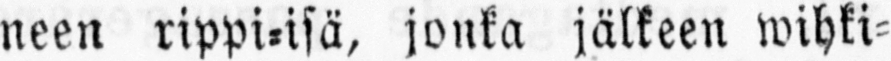neen rippi-isä, jonka jälkeen wihki-
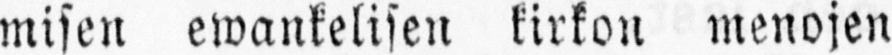misen ewankelisen kirkon menojen
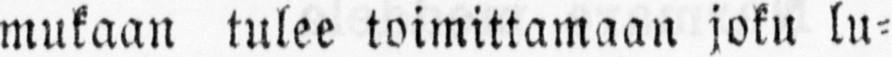mukaan tulee toimittamaan joku lu-
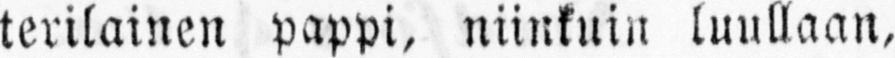terilainen pappi, niinkuin luullaan,
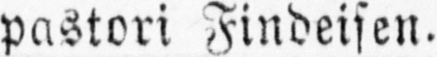pastori Findeisen.
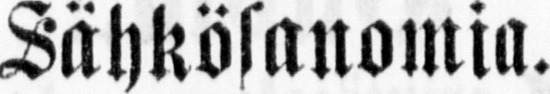Sähkösanomia.
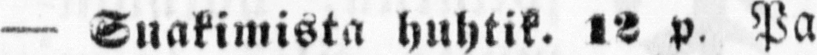— Suakimista huhtik. 12 p. Pa-
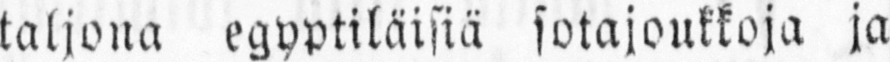taljona egyptiläisiä sotajoukkoja ja
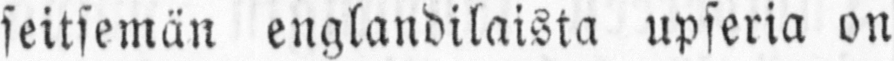seitsemän englandilaista upseria on
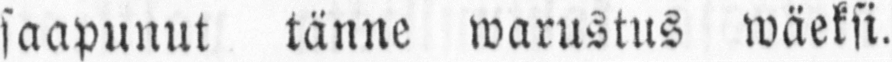saapunut tänne warustus wäeksi.
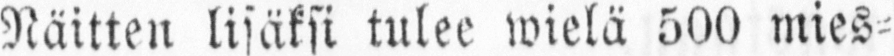Näitten lisäksi tulee wielä 500 mies-
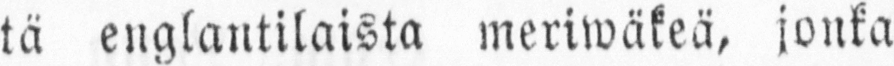tä englantilaista meriwäkeä, jonka
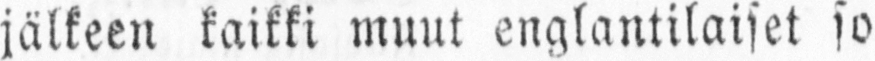jälkeen kaikki muut englantilaiset so-
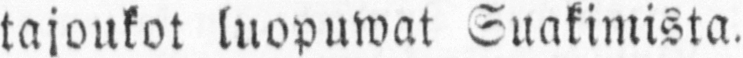tajoukot luopuwat Suakimista.
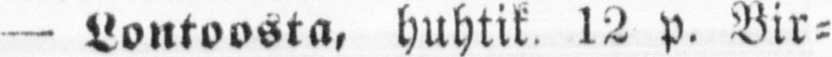— Lontoosta, huhtik. 12 p. Bir-
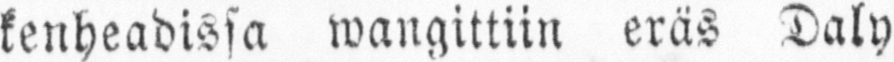kenheadissa wangittiin eräs Daly
